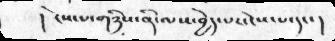།      ངེས་པ་གཉིས་ནི་ལས་བྱེད་པར་ངེས་པ་དང་ །
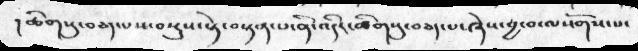།  ཚིགསུ་བཅད་པས་བསྡུས་སྟེ་བསྟན་པ་ནི་འདིར་ཚིགསུ་བཅད་པ་ཞེས་བྱ་བ་ལསོགས་པ་
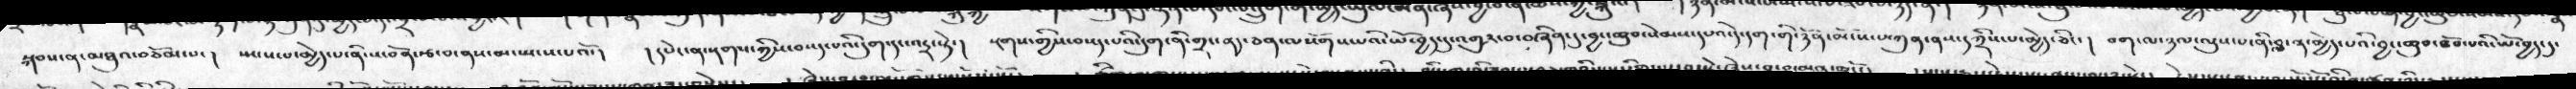སྐབས་ན་མཐུའ་བཅོམ་པར་།   སྤངས་པ་མྱེད་པ་ནི་ས་བོན་རྩ་བ་ནས་མ་སྤངས་པའོ་།   ། དཔེར་ན་སྔགས་ཀྱིས་བསད་པའི་དུག་དང་འདྲ་སྟེ་།  སྔགས་གྱིས་བསད་པའི་དུག་ནི་གྲང་ནད་ཅན་ལསོགས་པའི་ཡོ་བྱད་དུ་འགྱུར་བ་བཞིན་དུ་བྱང་ཆུབ་སེམས་དཔའ་དེ་དག་གི་ཉོན་མོངས་པ་ཀུན་ནས་དཀྲིས་པ་མྱེད་ཅིང་།  བག་ལ་ཉལ་ལུས་པ་ནི་བླ་ན་མྱེད་པའི་བྱང་ཆུབ་ཐོབ་པའི་ཡོ་བྱད་དུ་
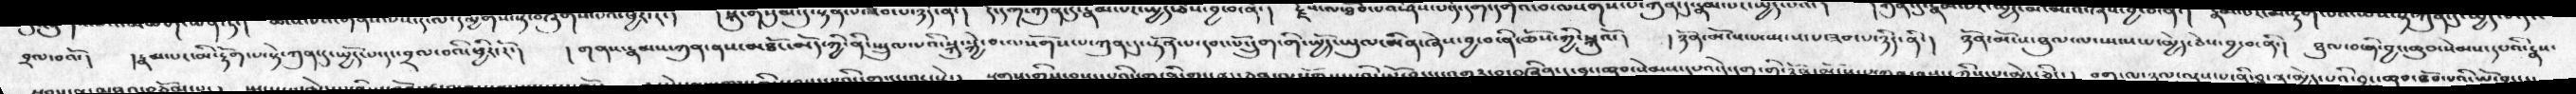བྲལ་བའོ་།   །རྣམ་པར་མི་རྟོག་པ་སྟེ་ཀུན་དུ་སྤྱད་པ་དང་བྲལ་བའི་ཕྱིར་རོ་།   ། གནས་རྣམས་ཀུན་ནས་མཐོང་མོད་ཀྱི་ནི་སྤྲུལ་པའི་སྐུ་སྐྱེ་བ་ལསོགས་པ་ཀུན་དུ་སྟོན་པ་དབང་པོ་དྲུག་གི་སྤྱོད་ཡུལ་མིན་ཞེས་བྱ་བ་ནི་ཆོས་ཀྱི་སྐུའོ་།    ། ཉོན་མོངས་པ་སྤངས་པ་ཟབ་པ་ཉིད་ནི་།  ཉོན་མོངས་ཐུལ་ལ་སྤངས་པ་མྱེད་ཅེས་བྱ་བ་ནི་།   ཐུལ་བ་ནི་བྱ་ཆུབ་སེམས་དཔའི་རྣས་
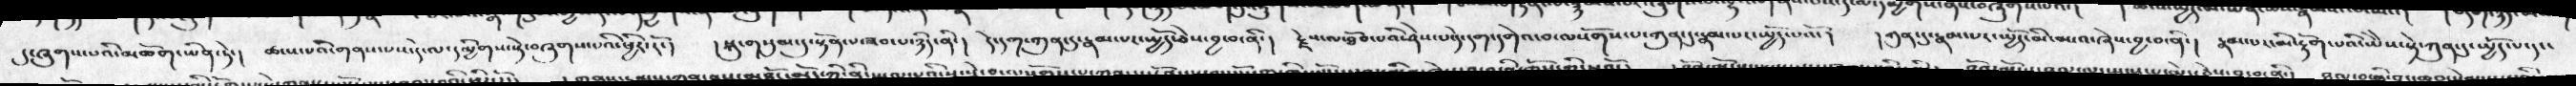དུ་ཞུགས་པའི་མཆོག་ཡིན་ཏེ་།  ཚངས་པའི་གནས་པས་དེ་ལ་དམྱིགས་སྟེ་བཞུགས་པའི་ཕྱིར་རོ་།   ། སྐུ་གསུམ་དུ་སྟོན་པ་ཟབ་པ་ཉིད་ནི་།  དེ་དག་ཀུན་དུ་རྣམ་པར་པར་སྤྱོད་ཅེས་བྱ་བ་ནི་།   རྗེས་ལ་ཐོབ་པའི་ཤེས་པ་དེ་དག་དགེའ་བ་ལསོགས་པ་ཀུན་དུ་རྣམ་པར་སྤྱོད་པའོ་།   ། ཀུན་དུ་རྣམ་པར་སྤྱོད་མི་མངས་ཞེས་བྱ་བ་ན་།  རྣམ་པར་མི་རྟོག་པའི་ཡེེས་སྟེ་ཀུན་དུ་སྤྱོད་པ་དང་
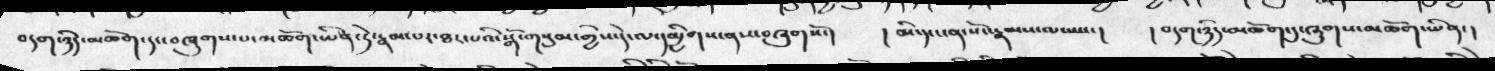བདག་ཉིད་མཆོག་དང་བཁུགས་པ་མཆོག་ཡིན་ཏེ་རྣམ་པར་ཐར་པའི་སྒོ་གསུམ་གྱིས་དེ་ལ་དམྱིགས་ནསབཞུགསོ་།  ། མི་དང་ངན་སོང་རྣམས་ལ་ཡང་།  ། བདག་ཉིད་མཆོག་དུ་ཞུགས་མཆོག་ཡིན་།
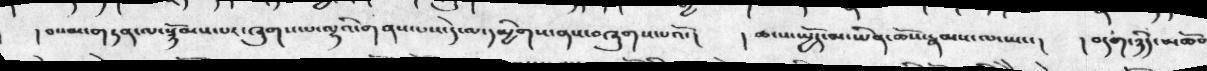། བསམ་གཏན་ལ་སྙོམས་པར་ཞུགས་པ་ལྷའི་གནས་པས་དེ་ལ་དམྱིགས་ནས་བཞུགས་པའོ་།   ། ཚངས་སྤྱོད་མ་ཡིན་ཆོས་རྣམས་ལ་ཡང་།  ། བདག་ཉིད་མཆོག
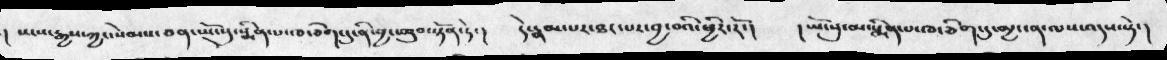། སངས་རྒྱས་ཀྱང་སེམས་ཅན་ཡོངསུ་སྨིན་པ་ཁ་ཅིག་དུ་ནི་བྱང་ཆུབ་སྟོན་ཏེ་།  དེ་རྣམ་པར་ཐར་པར་བྱ་བའི་ཕྱིར་རོ་།  ། ཡོངསུ་་མ་སྨིན་པ་ཁ་ཅིག་དུ་མྱ་ངན་ལས་འདས་སྟེ་།
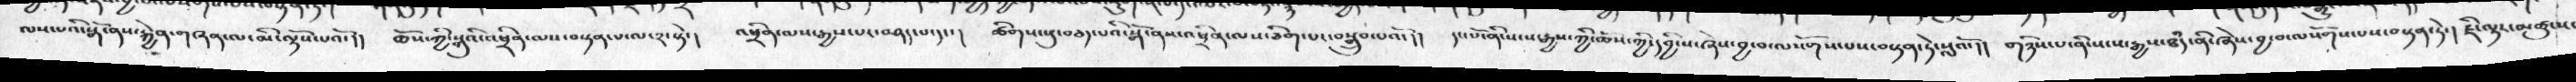ལས་པའི་སྒོ་ནས་རྐྱེན་གཞན་ལ་མི་ལྟོས་པའོ་།།   ཆོས་ཀྱི་སྐུའི་འཕྲིན་ལས་བསྟན་པ་ལ་༢་སྟེ་།   འཕྲིན་ལས་རྒྱས་པར་བཤད་པ་དང་།  ཚིགས་སུ་བཅད་པའི་སྒོ་ནས་འཕྲིན་ལས་ཅིག་པར་བསྒྲུབ་པའོ་།།  དང་པོ་ནི་སངས་རྒྱས་ཀྱི་དབྱིངས་ཞེས་བྱ་བ་ལསོགས་པས་བསྟན་དེ་སློའོ་།།   གཉིས་པ་ནི་སངས་རྒྱས་ཐཾད་ནི་ཞེས་བྱ་བ་ལསོགས་པས་བསྟན་ཏེ་།   ཇི་ལྟར་མཚུངས་
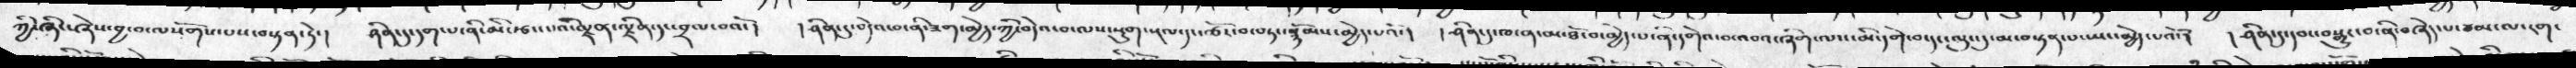ཀྱི་ཞིང་ཞེས་བྱ་བ་ལསོགས་པས་བསྟན་ཏེ་།  ཤིན་དུ་དག་པ་ནི་མི་རྩད་པའི་ལྗན་ལྗིན་དང་བྲལ་བའོ་།  ། ཤིན་དུ་བདེའ་བ་ནི་ཟག་མྱེད་ཀྱི་བདེའ་བ་ལས་སྡུག་སྔལ་དང་ཚོར་བ་བཏང་སྙོམས་མྱེད་པའོ་།   ། ཤིན་དུ་ཁ་ན་མ་ཐོ་བ་མྱེད་པ་ནི་དགེའ་བ་འབའ་ཞིག་ལས་མི་དགེ་བ་དང་ལུང་དུ་མ་བསྟན་པ་ཡང་མྱེད་པའོ་།  ། ཤིན་དུ་དབང་བསྒྱུར་བ་ནི་བཞེད་པ་ཙམ་ལ་རག་
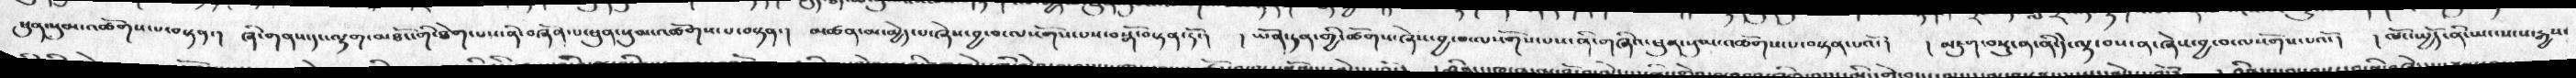ཕུན་སུམ་འཚོགས་པ་བསྟན་།  ཞི་གནས་དང་ལྷག་མཐོང་གི་ཐེག་པས་ནི་བཞོན་པ་ཕུན་སུམ་འཚོགས་པ་བསྟན་།  མཚན་མ་མྱེད་པ་ཞེས་བྱ་བ་ལསོགས་པས་བསྒོ་བསྟན་ཏོ་།   །  ཡོན་ཏན་གྱི་ཚོགས་ཞེས་བྱ་བ་ལསོགས་པས་ནི་གཞིའ་ཕུན་སུམ་འཚོགས་པ་བསྟན་པའོ་།  ། མཇུག་བསྡུ་ན་ནི་དེ་ལྟ་བས་ན་ཞེས་བྱ་བ་ལསོགས་པའོ་།  ། ལོང་སྤྱོད་ནི་ཡང་སངས་རྒྱས་
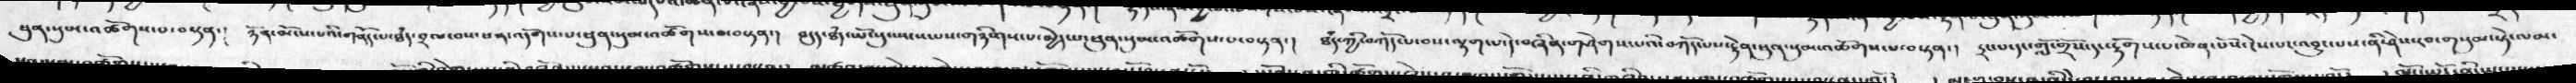ཕུན་སུམ་འཚོགས་པ་བསྟན་།   ཉོན་མོངས་པའི་གནོད་པ་ཐཾད་བྲལ་བས་ཕན་འདོགས་པ་ཕུན་སུམ་འཚོགས་པ་བསྟན་།  བདུད་ཐཾད་ཡོངསུ་སྤངས་པས་གཉིགས་པ་མྱེད་པ་ཕུན་སུམ་འཚོགས་པ་བསྟན་།  ཐཾད་ཀྱི་བཀོད་པ་བས་ལྷག་པ་དེ་བཞིན་གཤེགས་པའི་བཀོད་པས་རྟེན་ཕུན་སུམ་འཚོགས་པ་བསྟན་།  དྲང་པ་དང་གློ་གྲོས་དང་རྟོགས་པ་ཆེན་པོས་ངེས་པར་འབྱུང་པས་ནི་ཤེས་རབ་གསུམ་སྟེ་ལམ་
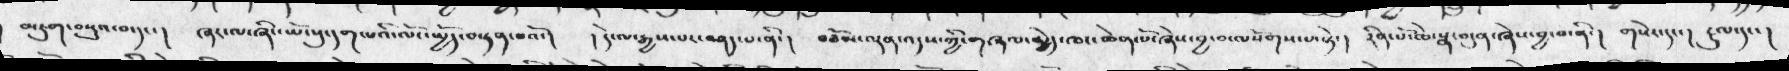མཇུག་བསྡུས་བ་དང་།  ཞར་ལ་ཞིང་ཡོངསུ་དག་པའི་ལོངས་སྤྱོད་བསྟན་པའོ་།   ། དེ་ལ་རྒྱས་པར་བཤད་པ་ནི་།   བཅོམ་ལྡན་འདས་ཀྱི་གཞལ་མྱེད་ཁང་ཆེན་པོ་ཞེས་བྱ་བ་ལསོགས་པ་སྟེ་།   རིན་པོ་ཆེ་སྣ་བདུན་ཞེས་བྱ་བ་ནི་།   གསེར་དང་།   རྡུལ་དང་།
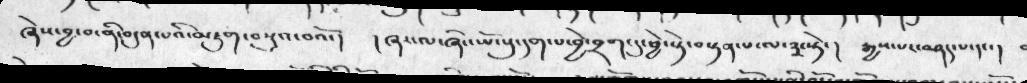ཞེས་བྱ་བ་ནི་བདུན་པའི་མཇུག་བསྡུའ་བའོ་།    ། ཞར་ལ་ཞེང་ཡོངསུ་དག་པ་བྱེ་བྲག་དུ་ཕྱེ་སྟེ་བསྟན་པ་ལ་༣་སྟེ་།    རྒྱས་པར་བཤད་པ་དང་།
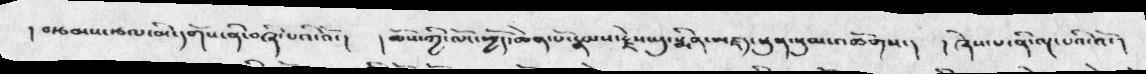། བརྩམས་རྩལ་མི་དགོས་ནི་བཞི་པའི་འོ་།   ། ཆོས་ཀྱི་ལོང་སྤྱོད་ཆེན་པོ་རྣམས་རྗེས་སུ་སྨིན་མཛད་ཕུན་སུམ་འཚོགས་།  ། ཞེས་པ་ནི་ལྔ་པའི་འོ་།
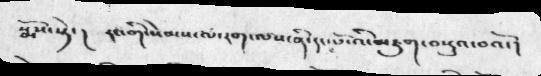སྨོས་སྟེ་།  རང་གི་སེམས་ལ་རག་ལས་ནི་དང་པོ་འི་མཇུག་བསྡུའ་བའོ་།
